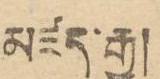མཛད་རྒྱུ།
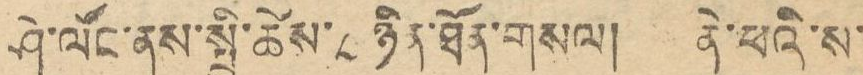ཤེ་ལོང་ནས་སྤྱི་ཚེས་ ༨ ཉིན་ཐོན་གསལ། ནེ་ཕའི་ས་
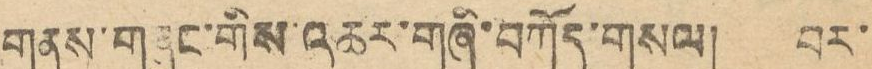གནས་གཞུང་གིས་འཆར་གཞི་བཀོད་གསལ། བར་
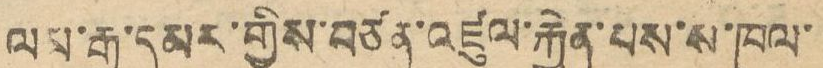ལམ་རྒྱ་དམར་གྱིས་བཙན་འཛུལ་རྐྱེན་པས་ས་ཁུལ་
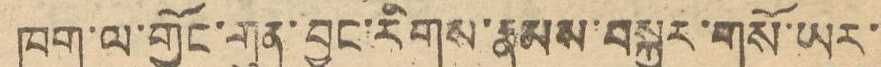ཁག་ལ་གྱོང་གུན་བྱུང་རིགས་རྣམས་བསྐྱར་གསོ་ཡར་
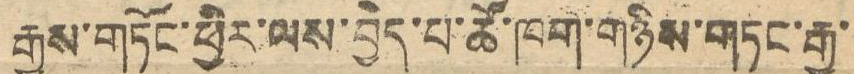རྒྱས་གཏོང་ཕྱིར་ལས་བྱེད་པ་ཚོ་ཁག་གཉིས་གཏང་རྒྱུ་
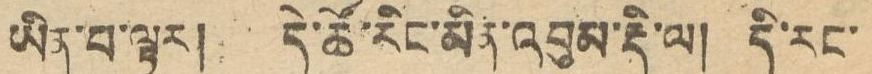ཡིན་པ་ལྟར། དེ་ཚོ་རིང་མིན་འབུམ་རྡི་ལ། དེ་རིང་
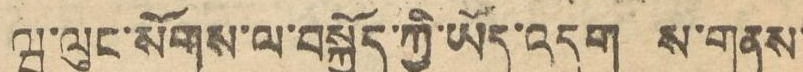ཝ་ལུང་སོགས་ལ་བསྐྱོད་ཀྱི་ཡོད་འདུག ས་གནས་
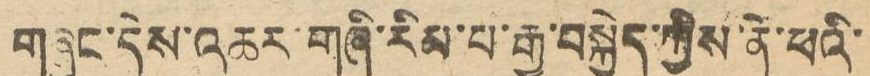གཞུང་དེས་འཆར་གཞི་རིམ་པ་རྒྱ་བསྐྱེད་ཀྱིས་ནི་ཕའི་
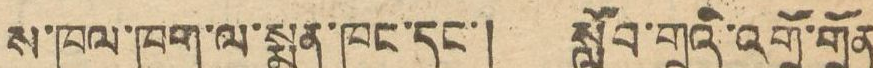ས་ཁུལ་ཁག་ལ་སྨན་ཁང་དང་། སློབ་གྲའི་འགྲོ་གྲོན
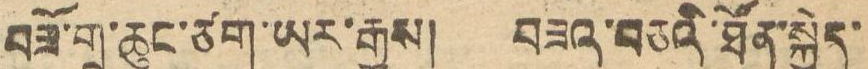བཟོ་གྲ་ཆུང་ཙག་ཡར་རྒྱས། བཟའ་བཅའི་ཐོན་སྐྱེད་
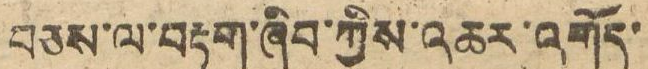བཅས་ལ་བརྟག་ཞིབ་ཀྱིས་འཆར་འགོད་
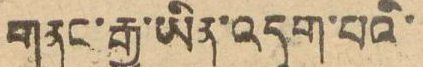གནང་རྒྱུ་ཡིན་འདུག་པའི་
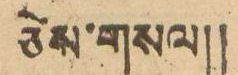ཅེས་གསལ།།
